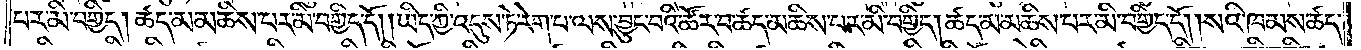པར་མི་བགྱིད། ཚད་མ་མཆིས་པར་མི་བགྱིད་དོ། །ཡིད་ཀྱི་འདུས་ཏེ་རེག་པ་ལས་བྱུང་བའི་ཚོར་བ་ཚད་མཆིས་པར་མི་བགྱིད། ཚད་མ་མཆིས་པར་མི་བགྱིད་དོ། །སའི་ཁམས་ཚད་
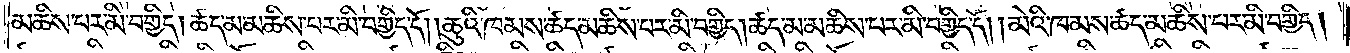མཆིས་པར་མི་བགྱིད། ཚད་མ་མཆིས་པར་མི་བགྱིད་དོ། །ཆུའི་ཁམས་ཚད་མཆིས་པར་མི་བགྱིད། ཚད་མ་མཆིས་པར་མི་བགྱིད་དོ། །མེའི་ཁམས་ཚད་མཆིས་པར་མི་བགྱིད།
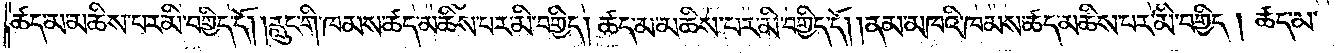ཚད་མ་མཆིས་པར་མི་བགྱིད་དོ། །རླུང་གི་ཁམས་ཚད་མཆིས་པར་མི་བགྱིད། ཚད་མ་མཆིས་པར་མི་བགྱིད་དོ། །ནམ་མཁའི་ཁམས་ཚད་མཆིས་པར་མི་བགྱིད། ཚད་མ་
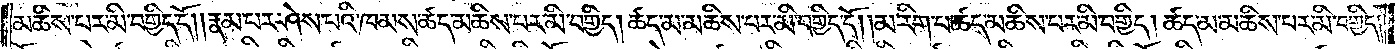མཆིས་པར་མི་བགྱིད་དོ། །རྣམ་པར་ཤེས་པའི་ཁམས་ཚད་མཆིས་པར་མི་བགྱིད། ཚད་མ་མཆིས་པར་མི་བགྱིད་དོ། །མ་རིག་པ་ཚད་མཆིས་པར་མི་བགྱིད། ཚད་མ་མཆིས་པར་མི་བགྱིད།
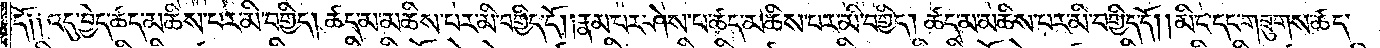དོ༑ ༑འདུ་བྱེད་ཚད་མཆིས་པར་མི་བགྱིད། ཚད་མ་མཆིས་པར་མི་བགྱིད་དོ། །རྣམ་པར་ཤེས་པ་ཚད་མཆིས་པར་མི་བགྱིད། ཚད་མ་མཆིས་པར་མི་བགྱིད་དོ། །མིང་དང་གཟུགས་ཚད་
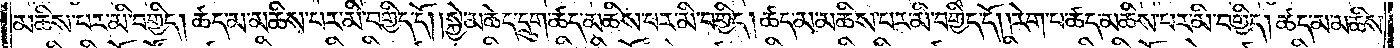མཆིས་པར་མི་བགྱིད། ཚད་མ་མཆིས་པར་མི་བགྱིད་དོ། །སྐྱེ་མཆེད་དྲུག་ཚད་མཆིས་པར་མི་བགྱིད། ཚད་མ་མཆིས་པར་མི་བགྱིད་དོ། །རེག་པ་ཚད་མཆིས་པར་མི་བགྱིད། ཚད་མ་མཆིས་
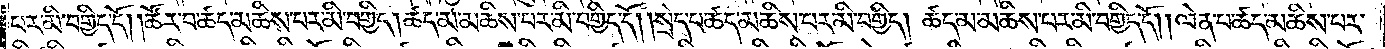པར་མི་བགྱིད་དོ། །ཚོར་བ་ཚད་མཆིས་པར་མི་བགྱིད། ཚད་མ་མཆིས་པར་མི་བགྱིད་དོ། །སྲེད་པ་ཚད་མཆིས་པར་མི་བགྱིད། ཚད་མ་མཆིས་པར་མི་བགྱིད་དོ། །ལེན་པ་ཚད་མཆིས་པར་
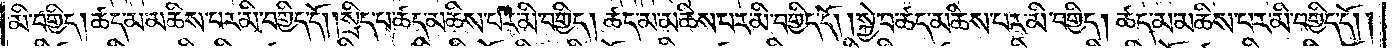མི་བགྱིད། ཚད་མ་མཆིས་པར་མི་བགྱིད་དོ། །སྲིད་པ་ཚད་མཆིས་པར་མི་བགྱིད། ཚད་མ་མཆིས་པར་མི་བགྱིད་དོ། །སྐྱེ་བ་ཚད་མཆིས་པར་མི་བགྱིད། ཚད་མ་མཆིས་པར་མི་བགྱིད་དོ། །
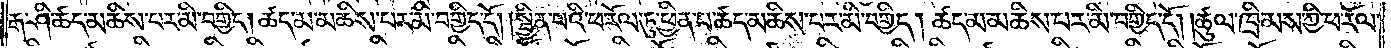རྒ་ཤི་ཚད་མཆིས་པར་མི་བགྱིད། ཚད་མ་མཆིས་པར་མི་བགྱིད་དོ། །སྦྱིན་པའི་ཕ་རོལ་ཏུ་ཕྱིན་པ་ཚད་མཆིས་པར་མི་བགྱིད། ཚད་མ་མཆིས་པར་མི་བགྱིད་དོ། །ཚུལ་ཁྲིམས་ཀྱི་ཕ་རོལ་
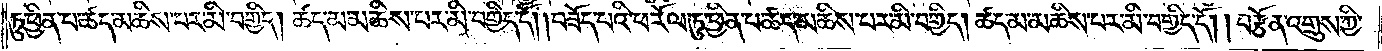ཏུ་ཕྱིན་པ་ཚད་མཆིས་པར་མི་བགྱིད། ཚད་མ་མཆིས་པར་མི་བགྱིད་དོ། །བཟོད་པའི་ཕ་རོལ་ཏུ་ཕྱིན་པ་ཚད་མཆིས་པར་མི་བགྱིད། ཚད་མ་མཆིས་པར་མི་བགྱིད་དོ། །བརྩོན་འགྲུས་ཀྱི་
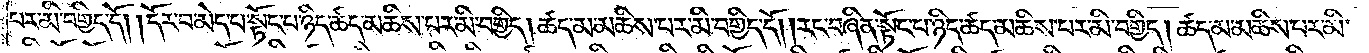པར་མི་བགྱིད་དོ། །དོར་བ་མེད་པ་སྟོང་པ་ཉིད་ཚད་མཆིས་པར་མི་བགྱིད། ཚད་མ་མཆིས་པར་མི་བགྱིད་དོ། །རང་བཞིན་སྟོང་པ་ཉིད་ཚད་མཆིས་པར་མི་བགྱིད། ཚད་མ་མཆིས་པར་མི་
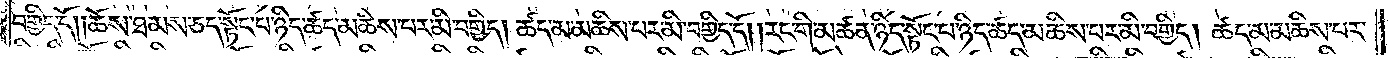བགྱིད་དོ། །ཆོས་ཐམས་ཅད་སྟོང་པ་ཉིད་ཚད་མཆིས་པར་མི་བགྱིད། ཚད་མ་མཆིས་པར་མི་བགྱིད་དོ། །རང་གི་མཚན་ཉིད་སྟོང་པ་ཉིད་ཚད་མཆིས་པར་མི་བགྱིད། ཚད་མ་མཆིས་པར་
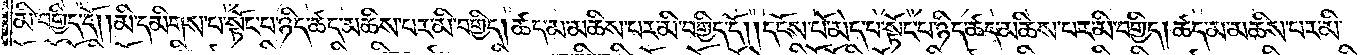མི་བགྱིད་དོ། །མི་དམིགས་པ་སྟོང་པ་ཉིད་ཚད་མཆིས་པར་མི་བགྱིད། ཚད་མ་མཆིས་པར་མི་བགྱིད་དོ། །དངོས་པོ་མེད་པ་སྟོང་པ་ཉིད་ཚད་མཆིས་པར་མི་བགྱིད། ཚད་མ་མཆིས་པར་མི་
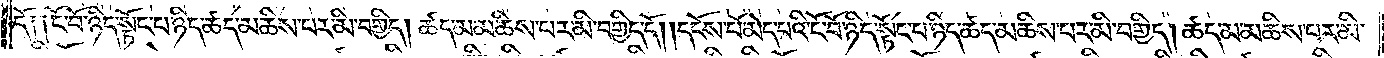དོ༑ ༑ངོ་བོ་ཉིད་སྟོང་པ་ཉིད་ཚད་མཆིས་པར་མི་བགྱིད། ཚད་མ་མཆིས་པར་མི་བགྱིད་དོ། །དངོས་པོ་མེད་པའི་ངོ་བོ་ཉིད་སྟོང་པ་ཉིད་ཚད་མཆིས་པར་མི་བགྱིད། ཚད་མ་མཆིས་པར་མི་
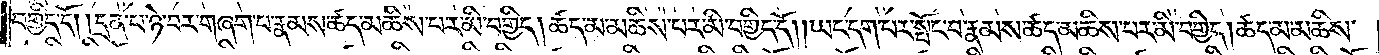བགྱིད་དོ། །དྲན་པ་ཉེ་བར་གཞག་པ་རྣམས་ཚད་མཆིས་པར་མི་བགྱིད། ཚད་མ་མཆིས་པར་མི་བགྱིད་དོ། །ཡང་དག་པར་སྤོང་བ་རྣམས་ཚད་མཆིས་པར་མི་བགྱིད། ཚད་མ་མཆིས་
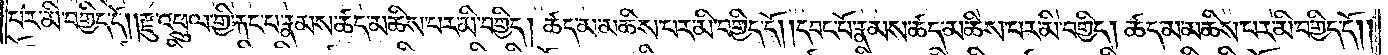པར་མི་བགྱིད་དོ། །རྫུ་འཕྲུལ་གྱི་རྐང་པ་རྣམས་ཚད་མཆིས་པར་མི་བགྱིད། ཚད་མ་མཆིས་པར་མི་བགྱིད་དོ། །དབང་པོ་རྣམས་ཚད་མཆིས་པར་མི་བགྱིད། ཚད་མ་མཆིས་པར་མི་བགྱིད་དོ། །
